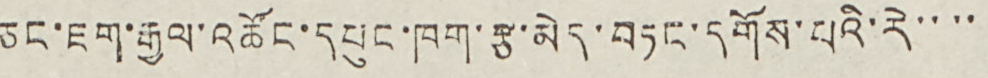ཅང་ཇག་རྒྱལ་འཚོང་དཔུང་ཁག་རྩ་མེད་བཏང་དགོས་པའི་རེ་་་་
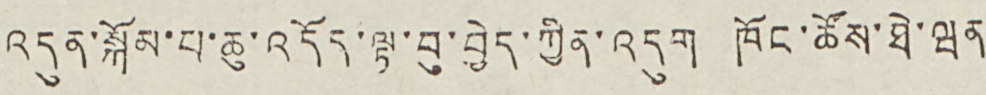འདུན་སྐོམ་པ་ཆུ་འདོད་ལྟ་བུ་བྱེད་ཀྱིན་འདུག ཁོང་ཚོས་ཐེ་ཝན
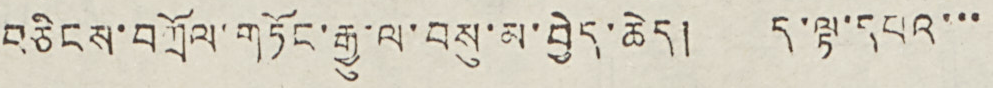བཅིངས་བཀྲོལ་གཏོང་རྒྱུ་ལ་བསུ་མ་བྱེད་ཆེད། ད་ལྟ་དབའ་་་
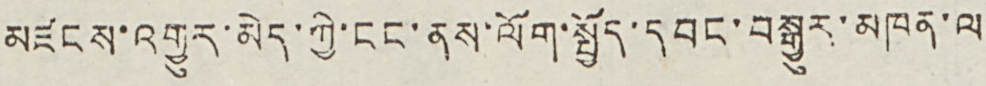མཛངས་འགྱུར་མེད་ཀྱི་ངང་ནས་ལོག་སྤྱོད་དབང་བསྒྱུར་མཁན་ལ
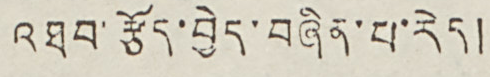འཐབ་རྩོད་བྱེད་བཞིན་པ་རེད།
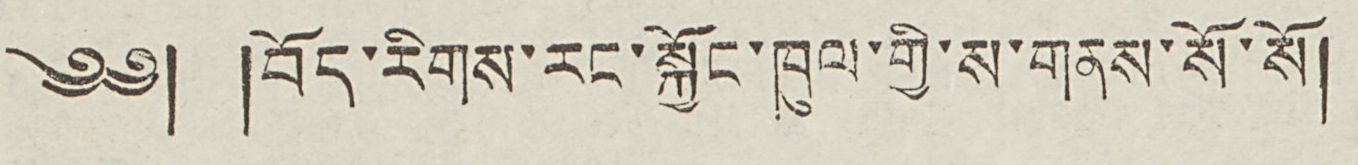༄༅། །བོད་རིགས་རང་སྐྱོང་ཁུལ་གྱི་ས་གནས་སོ་སོ།
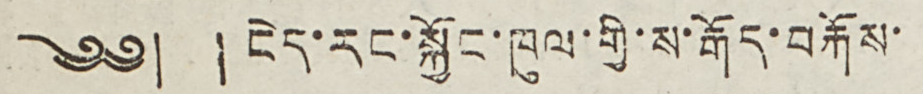༄༅། །ངེད་རང་སྐྱོང་ཁུལ་གྱི་ས་རྒོད་བརྐོས་
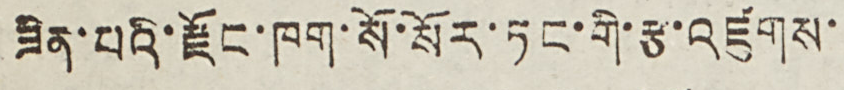ཟིན་པའི་རྫོང་ཁག་སོ་སོར་ཏང་གི་རྩ་འཛུགས་
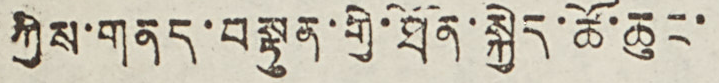ཀྱིས་གནད་བསྟུན་གྱི་ཐོན་སྐྱེད་ཚོ་ཆུང་
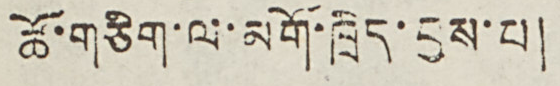ཚོ་གཅིག་ལ་མགོ་ཁྲིད་བྱས་པ།
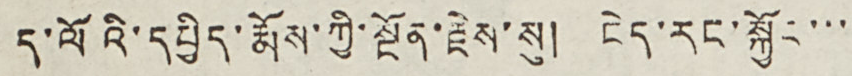ད་ལོའི་དཔྱིད་རྨོས་ཀྱི་སྔོན་རྗེས་སུ། ངེད་རང་སྐྱོང་་་
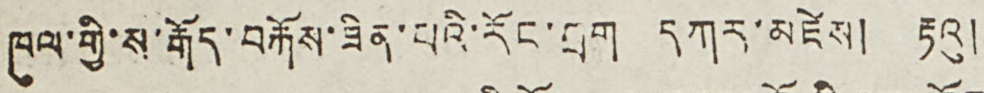ཁུལ་གྱི་ས་རྒོད་བརྐོས་ཟིན་པའི་རོང་བྲག དཀར་མཛེས། རྟའུ།
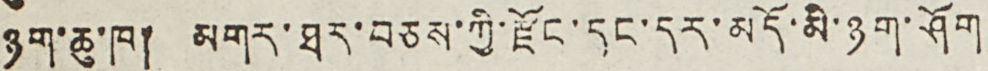ཉག་ཆུ་ཁ། མགར་ཐར་བཅས་ཀྱི་རྫོང་དང་དར་མདོ་མི་ཉག་ཤོག
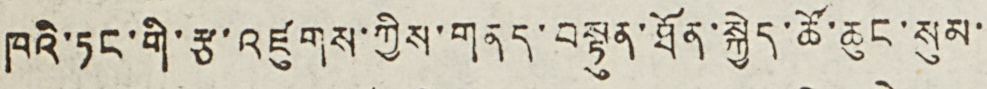ཁའི་ཏང་གི་རྩ་འཛུགས་ཀྱིས་གནད་བསྟུན་ཐོན་སྐྱེད་ཚོ་ཆུང་སུམ་
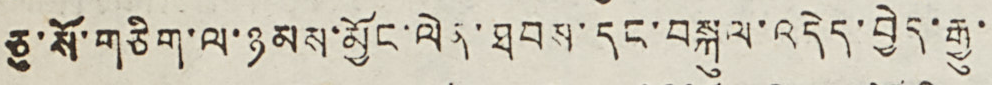ཅུ་སོ་གཅིག་ལ་ཉམས་མྱོང་ལེན་ཐབས་དང་བསྐུལ་འདེད་བྱེད་རྒྱུ་
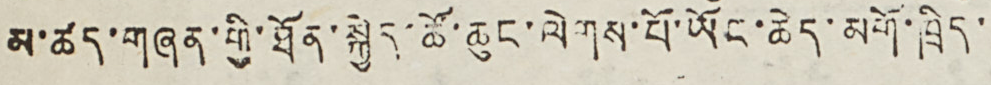མ་ཚད་གཞན་གྱི་ཐོན་སྐྱེད་ཚོ་ཆུང་ལེགས་པོ་ཡོང་ཆེད་མགོ་ཁྲིད་
